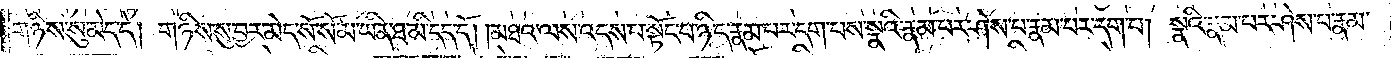གཉིས་སུ་མེད་དེ། གཉིས་སུ་བྱར་མེད་སོ་སོ་མ་ཡིན་ཐ་མི་དད་དོ། །མཐའ་ལས་འདས་པ་སྟོང་པ་ཉིད་རྣམ་པར་དག་པས་སྣའི་རྣམ་པར་ཤེས་པ་རྣམ་པར་དག་པ། སྣའི་རྣམ་པར་ཤེས་པ་རྣམ་
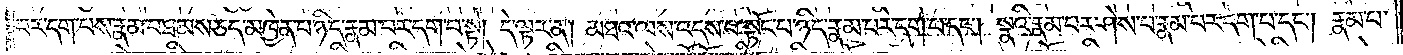པར་དག་པས་རྣམ་པ་ཐམས་ཅད་མཁྱེན་པ་ཉིད་རྣམ་པར་དག་པ་སྟེ། དེ་ལྟར་ན། མཐའ་ལས་འདས་པ་སྟོང་པ་ཉིད་རྣམ་པར་དག་པ་དང༌། སྣའི་རྣམ་པར་ཤེས་པ་རྣམ་པར་དག་པ་དང༌། རྣམ་པ་
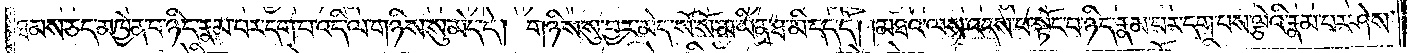ཐམས་ཅད་མཁྱེན་པ་ཉིད་རྣམ་པར་དག་པ་འདི་ལ་གཉིས་སུ་མེད་དེ། གཉིས་སུ་བྱར་མེད་སོ་སོ་མ་ཡིན་ཐ་མི་དད་དོ། །མཐའ་ལས་འདས་པ་སྟོང་པ་ཉིད་རྣམ་པར་དག་པས་ལྕེའི་རྣམ་པར་ཤེས་
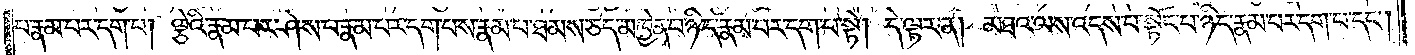པ་རྣམ་པར་དག་པ། ལྕེའི་རྣམ་པར་ཤེས་པ་རྣམ་པར་དག་པས་རྣམ་པ་ཐམས་ཅད་མཁྱེན་པ་ཉིད་རྣམ་པར་དག་པ་སྟེ། དེ་ལྟར་ན། མཐའ་ལས་འདས་པ་སྟོང་པ་ཉིད་རྣམ་པར་དག་པ་དང༌།
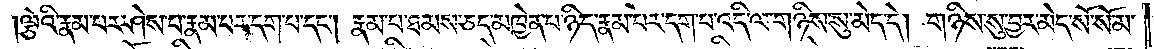ལྕེའི་རྣམ་པར་ཤེས་པ་རྣམ་པར་དག་པ་དང༌། རྣམ་པ་ཐམས་ཅད་མཁྱེན་པ་ཉིད་རྣམ་པར་དག་པ་འདི་ལ་གཉིས་སུ་མེད་དེ། གཉིས་སུ་བྱར་མེད་སོ་སོ་མ་
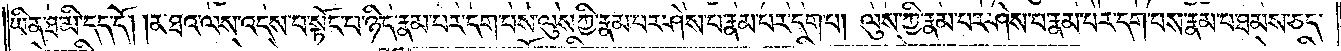ཡིན་ཐ་མི་དད་དོ། །མཐའ་ལས་འདས་པ་སྟོང་པ་ཉིད་རྣམ་པར་དག་པས་ལུས་ཀྱི་རྣམ་པར་ཤེས་པ་རྣམ་པར་དག་པ། ལུས་ཀྱི་རྣམ་པར་ཤེས་པ་རྣམ་པར་དག་པས་རྣམ་པ་ཐམས་ཅད་
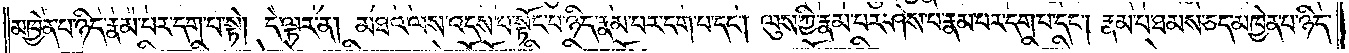མཁྱེན་པ་ཉིད་རྣམ་པར་དག་པ་སྟེ། དེ་ལྟར་ན། མཐའ་ལས་འདས་པ་སྟོང་པ་ཉིད་རྣམ་པར་དག་པ་དང༌། ལུས་ཀྱི་རྣམ་པར་ཤེས་པ་རྣམ་པར་དག་པ་དང༌། རྣམ་པ་ཐམས་ཅད་མཁྱེན་པ་ཉིད་
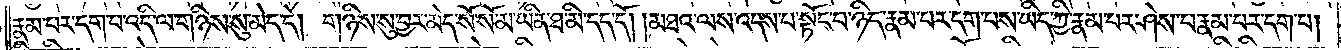རྣམ་པར་དག་པ་འདི་ལ་གཉིས་སུ་མེད་དེ། གཉིས་སུ་བྱར་མེད་སོ་སོ་མ་ཡིན་ཐ་མི་དད་དོ། །མཐའ་ལས་འདས་པ་སྟོང་པ་ཉིད་རྣམ་པར་དག་པས་ཡིད་ཀྱི་རྣམ་པར་ཤེས་པ་རྣམ་པར་དག་པ།
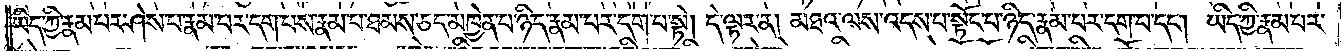ཡིད་ཀྱི་རྣམ་པར་ཤེས་པ་རྣམ་པར་དག་པས་རྣམ་པ་ཐམས་ཅད་མཁྱེན་པ་ཉིད་རྣམ་པར་དག་པ་སྟེ། དེ་ལྟར་ན། མཐའ་ལས་འདས་པ་སྟོང་པ་ཉིད་རྣམ་པར་དག་པ་དང༌། ཡིད་ཀྱི་རྣམ་པར་
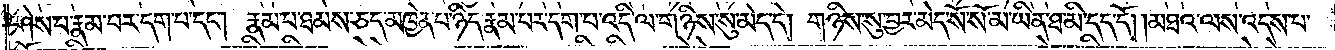ཤེས་པ་རྣམ་པར་དག་པ་དང༌། རྣམ་པ་ཐམས་ཅད་མཁྱེན་པ་ཉིད་རྣམ་པར་དག་པ་འདི་ལ་གཉིས་སུ་མེད་དེ། གཉིས་སུ་བྱར་མེད་སོ་སོ་མ་ཡིན་ཐ་མི་དད་དོ། །མཐའ་ལས་འདས་པ་
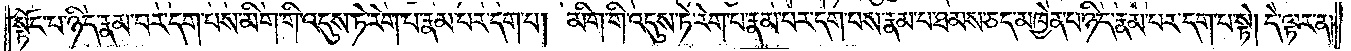སྟོང་པ་ཉིད་རྣམ་པར་དག་པས་མིག་གི་འདུས་ཏེ་རེག་པ་རྣམ་པར་དག་པ། མིག་གི་འདུས་ཏེ་རེག་པ་རྣམ་པར་དག་པས་རྣམ་པ་ཐམས་ཅད་མཁྱེན་པ་ཉིད་རྣམ་པར་དག་པ་སྟེ། དེ་ལྟར་ན།
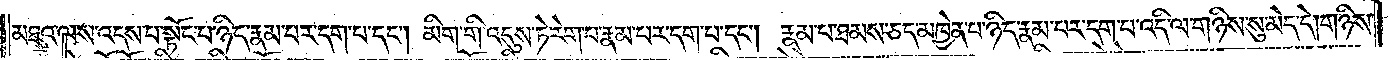མཐའ་ལས་འདས་པ་སྟོང་པ་ཉིད་རྣམ་པར་དག་པ་དང༌། མིག་གི་འདུས་ཏེ་རེག་པ་རྣམ་པར་དག་པ་དང༌། རྣམ་པ་ཐམས་ཅད་མཁྱེན་པ་ཉིད་རྣམ་པར་དག་པ་འདི་ལ་གཉིས་སུ་མེད་དེ། གཉིས་
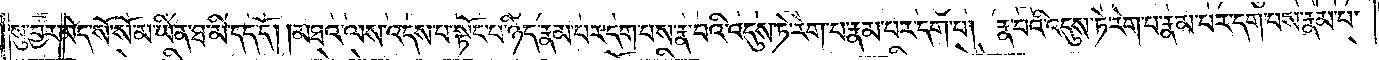སུ་བྱར་མེད་སོ་སོ་མ་ཡིན་ཐ་མི་དད་དོ། །མཐའ་ལས་འདས་པ་སྟོང་པ་ཉིད་རྣམ་པར་དག་པས་རྣ་བའི་འདུས་ཏེ་རེག་པ་རྣམ་པར་དག་པ། རྣ་བའི་འདུས་ཏེ་རེག་པ་རྣམ་པར་དག་པས་རྣམ་པ་
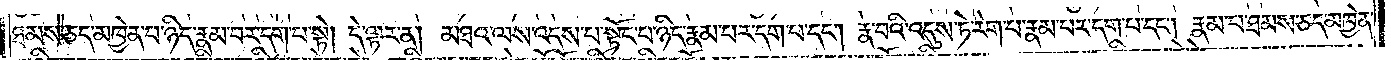ཐམས་ཅད་མཁྱེན་པ་ཉིད་རྣམ་པར་དག་པ་སྟེ། དེ་ལྟར་ན། མཐའ་ལས་འདས་པ་སྟོང་པ་ཉིད་རྣམ་པར་དག་པ་དང༌། རྣ་བའི་འདུས་ཏེ་རེག་པ་རྣམ་པར་དག་པ་དང༌། རྣམ་པ་ཐམས་ཅད་མཁྱེན་
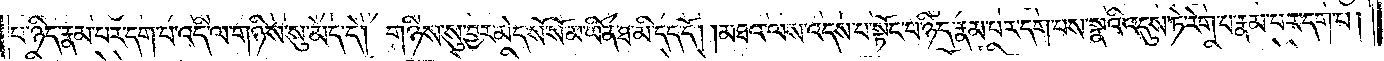པ་ཉིད་རྣམ་པར་དག་པ་འདི་ལ་གཉིས་སུ་མེད་དེ། གཉིས་སུ་བྱར་མེད་སོ་སོ་མ་ཡིན་ཐ་མི་དད་དོ། །མཐའ་ལས་འདས་པ་སྟོང་པ་ཉིད་རྣམ་པར་དག་པས་སྣའི་འདུས་ཏེ་རེག་པ་རྣམ་པར་དག་པ།
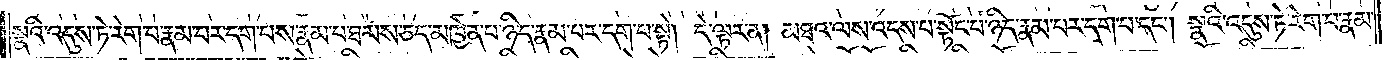སྣའི་འདུས་ཏེ་རེག་པ་རྣམ་པར་དག་པས་རྣམ་པ་ཐམས་ཅད་མཁྱེན་པ་ཉིད་རྣམ་པར་དག་པ་སྟེ། དེ་ལྟར་ན། མཐའ་ལས་འདས་པ་སྟོང་པ་ཉིད་རྣམ་པར་དག་པ་དང༌། སྣའི་འདུས་ཏེ་རེག་པ་རྣམ་
